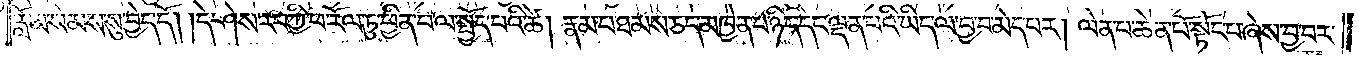རློམ་སེམས་སུ་བྱེད་དོ། །དེ་ཤེས་རབ་ཀྱི་ཕ་རོལ་ཏུ་ཕྱིན་པ་ལ་སྤྱོད་པའི་ཚེ། རྣམ་པ་ཐམས་ཅད་མཁྱེན་པ་ཉིད་དང་ལྡན་པའི་ཡིད་ལ་བྱ་བ་མེད་པར། ལེན་པ་ཆེན་པོ་སྟོང་པ་ཞེས་བྱ་བར་
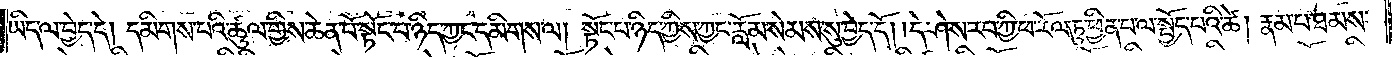ཡིད་ལ་བྱེད་དེ། དམིགས་པའི་ཚུལ་གྱིས་ཆེན་པོ་སྟོང་པ་ཉིད་ཀྱང་དམིགས་ལ། སྟོང་པ་ཉིད་ཀྱིས་ཀྱང་རློམ་སེམས་སུ་བྱེད་དོ། །དེ་ཤེས་རབ་ཀྱི་ཕ་རོལ་ཏུ་ཕྱིན་པ་ལ་སྤྱོད་པའི་ཚེ། རྣམ་པ་ཐམས་
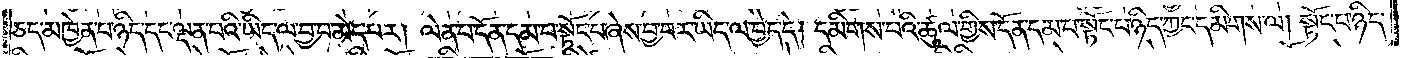ཅད་མཁྱེན་པ་ཉིད་དང་ལྡན་པའི་ཡིད་ལ་བྱ་བ་མེད་པར། ལེན་པ་དོན་དམ་པ་སྟོང་པ་ཞེས་བྱ་བར་ཡིད་ལ་བྱེད་དེ། དམིགས་པའི་ཚུལ་གྱིས་དོན་དམ་པ་སྟོང་པ་ཉིད་ཀྱང་དམིགས་ལ། སྟོང་པ་ཉིད་
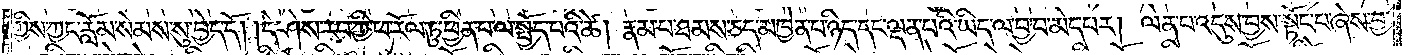ཀྱིས་ཀྱང་རློམ་སེམས་སུ་བྱེད་དོ། །དེ་ཤེས་རབ་ཀྱི་ཕ་རོལ་ཏུ་ཕྱིན་པ་ལ་སྤྱོད་པའི་ཚེ། རྣམ་པ་ཐམས་ཅད་མཁྱེན་པ་ཉིད་དང་ལྡན་པའི་ཡིད་ལ་བྱ་བ་མེད་པར། ལེན་པ་འདུས་བྱས་སྟོང་པ་ཞེས་བྱ་
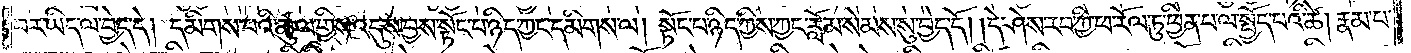བར་ཡིད་ལ་བྱེད་དེ། དམིགས་པའི་ཚུལ་གྱིས་འདུས་བྱས་སྟོང་པ་ཉིད་ཀྱང་དམིགས་ལ། སྟོང་པ་ཉིད་ཀྱིས་ཀྱང་རློམ་སེམས་སུ་བྱེད་དོ། །དེ་ཤེས་རབ་ཀྱི་ཕ་རོལ་ཏུ་ཕྱིན་པ་ལ་སྤྱོད་པའི་ཚེ། རྣམ་པ་
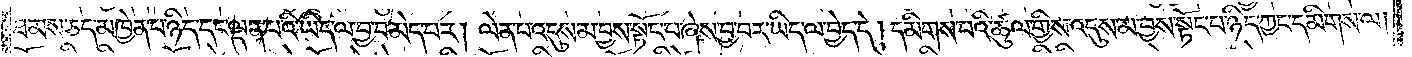ཐམས་ཅད་མཁྱེན་པ་ཉིད་དང་ལྡན་པའི་ཡིད་ལ་བྱ་བ་མེད་པར། ལེན་པ་འདུས་མ་བྱས་སྟོང་པ་ཞེས་བྱ་བར་ཡིད་ལ་བྱེད་དེ། དམིགས་པའི་ཚུལ་གྱིས་འདུས་མ་བྱས་སྟོང་པ་ཉིད་ཀྱང་དམིགས་ལ།
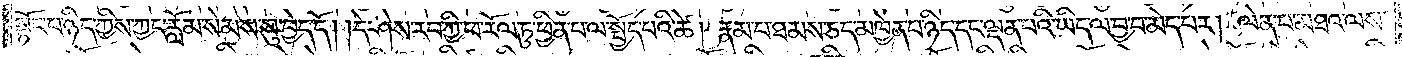སྟོང་པ་ཉིད་ཀྱིས་ཀྱང་རློམ་སེམས་སུ་བྱེད་དོ། །དེ་ཤེས་རབ་ཀྱི་ཕ་རོལ་ཏུ་ཕྱིན་པ་ལ་སྤྱོད་པའི་ཚེ། རྣམ་པ་ཐམས་ཅད་མཁྱེན་པ་ཉིད་དང་ལྡན་པའི་ཡིད་ལ་བྱ་བ་མེད་པར། ལེན་པ་མཐའ་ལས་
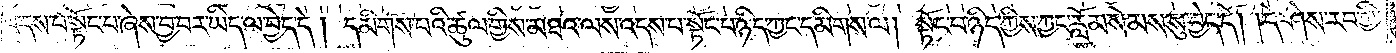འདས་པ་སྟོང་པ་ཞེས་བྱ་བར་ཡིད་ལ་བྱེད་དེ། དམིགས་པའི་ཚུལ་གྱིས་མཐའ་ལས་འདས་པ་སྟོང་པ་ཉིད་ཀྱང་དམིགས་ལ། སྟོང་པ་ཉིད་ཀྱིས་ཀྱང་རློམ་སེམས་སུ་བྱེད་དོ། །དེ་ཤེས་རབ་ཀྱི་
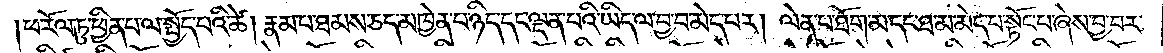ཕ་རོལ་ཏུ་ཕྱིན་པ་ལ་སྤྱོད་པའི་ཚེ། རྣམ་པ་ཐམས་ཅད་མཁྱེན་པ་ཉིད་དང་ལྡན་པའི་ཡིད་ལ་བྱ་བ་མེད་པར། ལེན་པ་ཐོག་མ་དང་ཐ་མ་མེད་པ་སྟོང་པ་ཞེས་བྱ་བར་
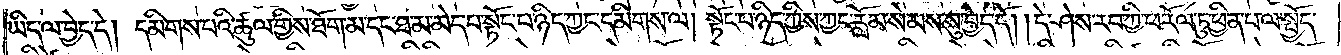ཡིད་ལ་བྱེད་དེ། དམིགས་པའི་ཚུལ་གྱིས་ཐོག་མ་དང་ཐ་མ་མེད་པ་སྟོང་པ་ཉིད་ཀྱང་དམིགས་ལ། སྟོང་པ་ཉིད་ཀྱིས་ཀྱང་རློམ་སེམས་སུ་བྱེད་དོ། །དེ་ཤེས་རབ་ཀྱི་ཕ་རོལ་ཏུ་ཕྱིན་པ་ལ་སྤྱོད་
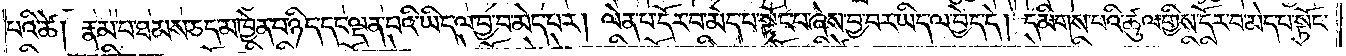པའི་ཚེ། རྣམ་པ་ཐམས་ཅད་མཁྱེན་པ་ཉིད་དང་ལྡན་པའི་ཡིད་ལ་བྱ་བ་མེད་པར། ལེན་པ་དོར་བ་མེད་པ་སྟོང་པ་ཞེས་བྱ་བར་ཡིད་ལ་བྱེད་དེ། དམིགས་པའི་ཚུལ་གྱིས་དོར་བ་མེད་པ་སྟོང་
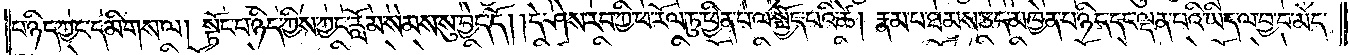པ་ཉིད་ཀྱང་དམིགས་ལ། སྟོང་པ་ཉིད་ཀྱིས་ཀྱང་རློམ་སེམས་སུ་བྱེད་དོ། །དེ་ཤེས་རབ་ཀྱི་ཕ་རོལ་ཏུ་ཕྱིན་པ་ལ་སྤྱོད་པའི་ཚེ། རྣམ་པ་ཐམས་ཅད་མཁྱེན་པ་ཉིད་དང་ལྡན་པའི་ཡིད་ལ་བྱ་བ་མེད་
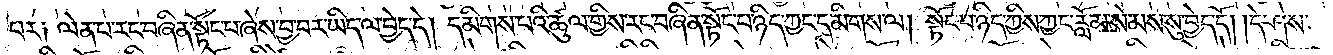པར། ལེན་པ་རང་བཞིན་སྟོང་པ་ཞེས་བྱ་བར་ཡིད་ལ་བྱེད་དེ། དམིགས་པའི་ཚུལ་གྱིས་རང་བཞིན་སྟོང་པ་ཉིད་ཀྱང་དམིགས་ལ། སྟོང་པ་ཉིད་ཀྱིས་ཀྱང་རློམ་སེམས་སུ་བྱེད་དོ། །དེ་ཤེས་
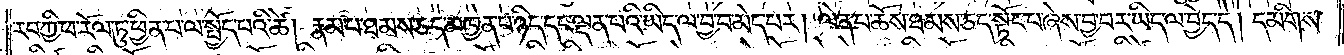རབ་ཀྱི་ཕ་རོལ་ཏུ་ཕྱིན་པ་ལ་སྤྱོད་པའི་ཚེ། རྣམ་པ་ཐམས་ཅད་མཁྱེན་པ་ཉིད་དང་ལྡན་པའི་ཡིད་ལ་བྱ་བ་མེད་པར། ལེན་པ་ཆོས་ཐམས་ཅད་སྟོང་པ་ཞེས་བྱ་བར་ཡིད་ལ་བྱེད་དེ། དམིགས་
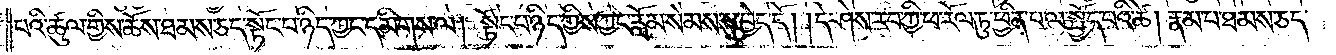པའི་ཚུལ་གྱིས་ཆོས་ཐམས་ཅད་སྟོང་པ་ཉིད་ཀྱང་དམིགས་ལ། སྟོང་པ་ཉིད་ཀྱིས་ཀྱང་རློམ་སེམས་སུ་བྱེད་དོ། །དེ་ཤེས་རབ་ཀྱི་ཕ་རོལ་ཏུ་ཕྱིན་པ་ལ་སྤྱོད་པའི་ཚེ། རྣམ་པ་ཐམས་ཅད་
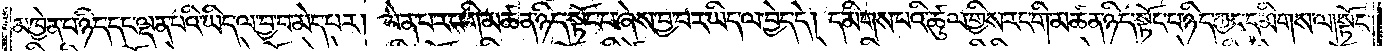མཁྱེན་པ་ཉིད་དང་ལྡན་པའི་ཡིད་ལ་བྱ་བ་མེད་པར། ལེན་པ་རང་གི་མཚན་ཉིད་སྟོང་པ་ཞེས་བྱ་བར་ཡིད་ལ་བྱེད་དེ། དམིགས་པའི་ཚུལ་གྱིས་རང་གི་མཚན་ཉིད་སྟོང་པ་ཉིད་ཀྱང་དམིགས་ལ། སྟོང་
